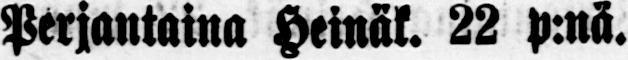Perjantaina Heinäk. 22 p:nä.
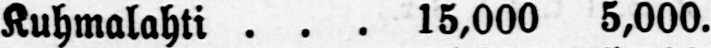Kuhmalahti 15,000 5,000.
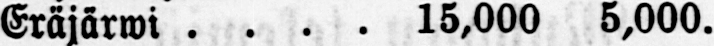Eräjärwi 15,000 5,000.
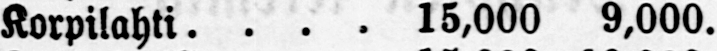Korpilahti. 15,000 9,000.
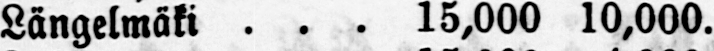Längelmäki 15,000 10,000.
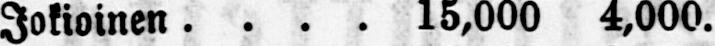Jokioinen. 15,000 4,000.
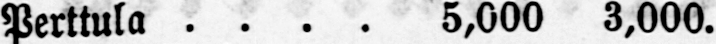Perttula 5,000 3,000.
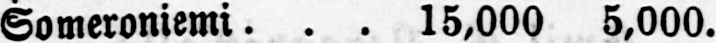Someroniemi. 15,000 5,000.
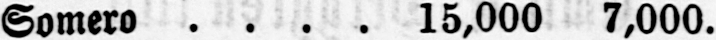Somero 15,000 7,000.
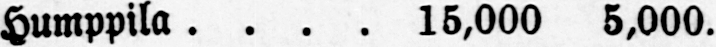Humppila 15,000 5,000.
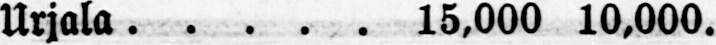Urjala 15,000 10,000.
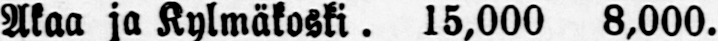Akaa ja Kylmäkoski. 15,000 8,000.
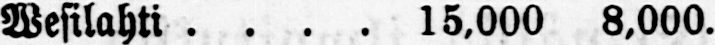Wesilahti 15,000 8,000.
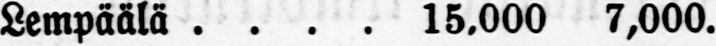Lempäälä 15.000 7,000.
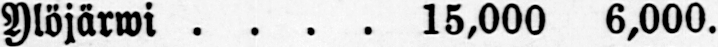Ylöjärwi 15,000 6,000.
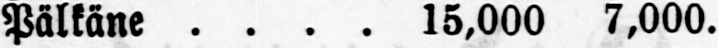Pälkäne 15,000 7,000.
